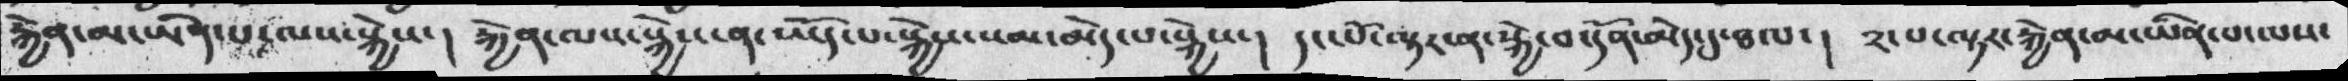རྐྱེན་མ་ཡིན་པ་ལས་སྐྱེས་ ། སྐྱེན་ལས་སྐྱེས་ན་ཡོད་པ་སྐྱེས་སམ་མེད་པ་སྐྱེས་།   དང་པོ་ལྟར་ན་སྐྱེ་བ་དོན་མེད་དུ་ཐལ་།   ༢་པ་ལྟར་རྐྱེན་མ་ཡིན་པ་ལས་
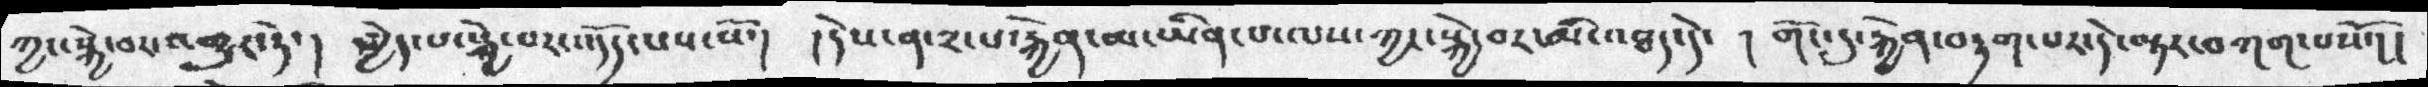ཀྱང་སྐྱེ་བར་འགྱུར་ཏེ་། མྱེད་པ་སྐྱེ་བར་འདོད་པས་སོ་།  ། དེས་ན་༢པ་རྐྱེན་མ་ཡིན་པ་ལས་ཀྱང་སྐྱེ་བར་མི་འཐད་དེ་  ། གོང་དུ་རྐྱེན་བརྟག་པར་དེ་ལྟར་བཀག་པསོ་། །
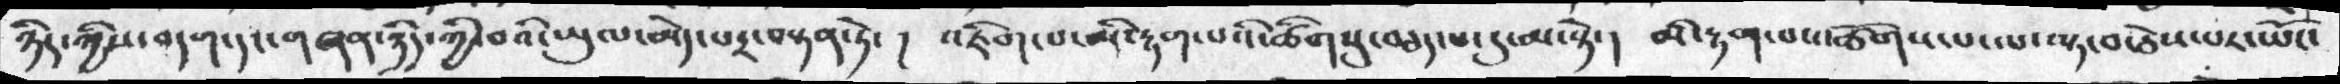ཉིད་ཀྱིས་བདག་དང་གཞན་ཉིད་ཀྱི་བའི་ཡུལ་མེདཔར་བསྟན་ཏེ་ ། འཇིག་པ་མི་རྟག་པའི་ཚིགསུ་བཅད་པ་དུ་མ་སྟེ་། མི་རྟག་པས་ཚོགས་པ་ལ་ལྟ་བ་ཅེས་པར་ཡོང་
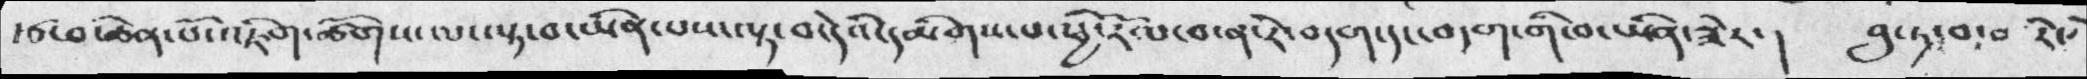རྩ་མ་ཆེན་པོ་འཇིག་ཚོགས་ལ་ལྟ་བ་ཡིན་པས་ལྟ་བ་དེའི་དམིགས་པ་ཕྱི་རོལ་བ་ན་རེ་བདག་དང་བདག་གི་བ་ཡིན་ཟེར་།  བུ་ཏ་བ་ན་རེ་
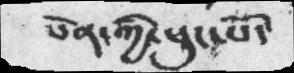པེན་ཀྱི་ཕུང་པོ་
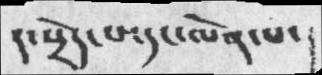ད་སྲེད་པ་དང་ལེན་པ་ །
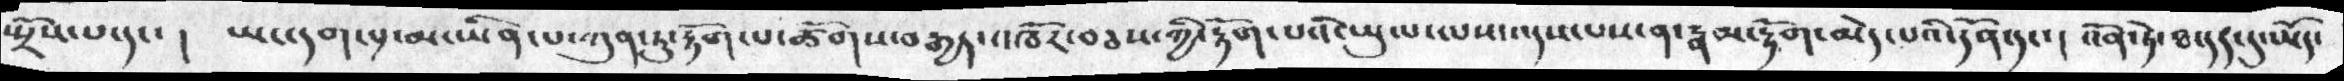སྤྲོས་པ་དང་ ། ཡང་དག་པ་ཡིན་པ་ཀུན་ཏུ་རྟོག་པ་ཚོགས་བརྒྱད་འཁོར་བཅས་ཀྱི་རྟོག་པའི་ཡུལ་ལས་འདས་པས་ན་རྣམ་རྟོག་མེད་པའི་དོན་དང་ ། འོན་ཏེ་ཐ་དད་དུ་ཡོད་
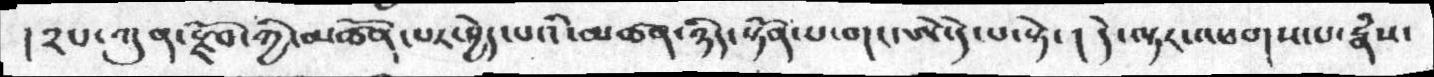།༢པ་ཀུན་སྫོབ་ཀྱི་མཚོན་པར་བྱེད་པའི་མཚན་ཉིད་སྟོན་པ་གང་ཨེ་དེ་པ་སྟེ་ ། དེ་ལྟར་འཕགས་པ་རྣཾས་
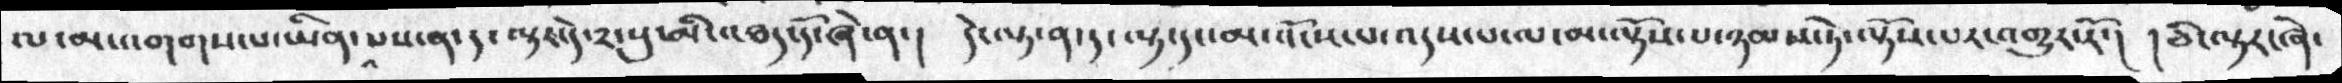ལ་མ་འགགས་པ་ཡིན་པས་ན་ད་ལྟར་དེ་༢་སུ་མི་འཐད་དོ་ཞེ་ན་།  དེ་ལྟ་ན་ད་ལྟ་དང་མ་འོངས་པ་འདས་པ་ལ་མ་ལྟོས་པ་ཉམས་ཏེ་ལྟོས་པར་འགྱུར་རོ་།   །ཅི་ལྟར་ཞེ་
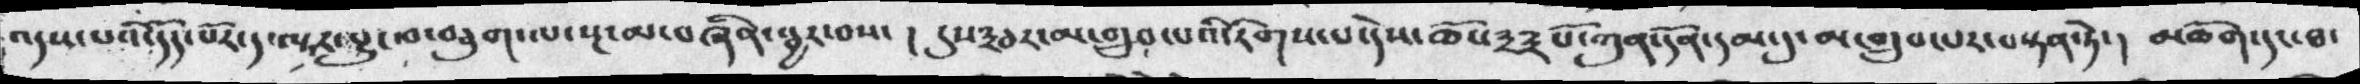འདས་པའོ་དོད་པོཏ་ད་ལྟར་བྱུང་བ་བཅུག་ལ་སྔ་མ་བཞིན་སྦྱར་བས་། དུས༣ཅར་མ་གྲུབ་པའི་རིགས་པ་དེས་ཆོས༣༣པོ་ཀུན་དོན་དམ་དུ་མ་གྲུབ་པར་བསྟན་ཏེ་། མཆོག་དང་ཐ་
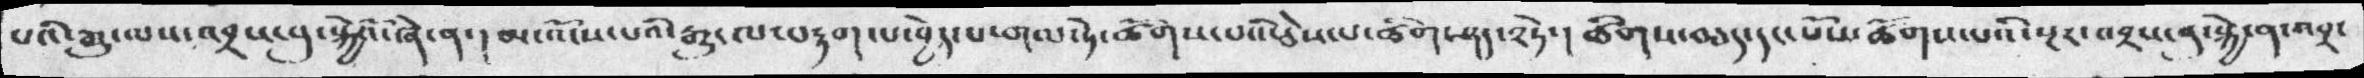པའི་རྒྱུ་ལས་འབྲས་བུ་སྐྱེའོ་ཞེ་ན་། མ་འོངས་པའི་རྒྱུ་ལ་བརྟག་པ་བྱེད་པ་གལ་ཏེ་ཚོགས་པའི་ཅེས་པ་ཚིག་ཤད་༢ཏེ་། ཚིགས་བཅད་དང་པོས་ཚོགས་པའི་སྔར་འབྲས་བུ་སྐྱེ་ན་འབྲ་
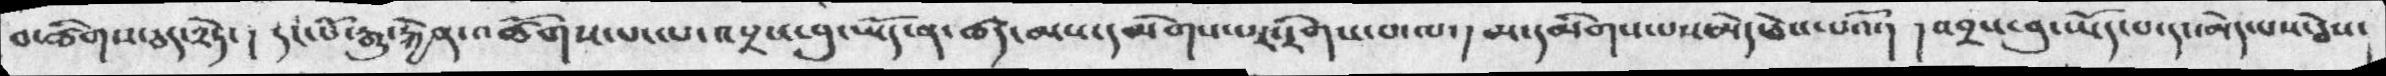བ་ཚིགས་ཅད་༢ཏེ་། དང་པོ་རྒྱུ་རྐྱེན་འཚོགས་པ་ལ་འབྲས་བུ་ཡོད་ན་ཚད་མས་དམིགས་པར་རིགས་པ་ལ་། མ་དམིགས་པས་མེད་ཅེས་པའོ་། །འབྲས་བུ་ཡོད་པ་དང་མེད་པས་ཅེས་
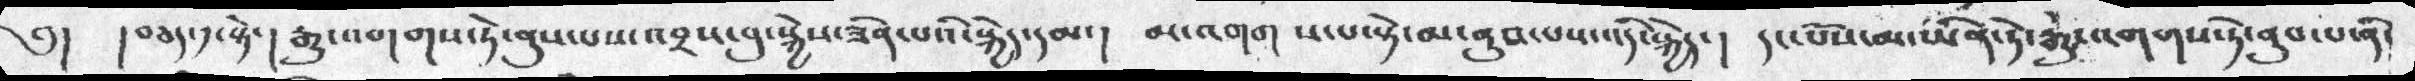༅།  །བཅད་༡་སྟེ་། རྒྱུ་འགགས་ཏེ་ནུས་པས་འབྲས་བུ་སྐྱེས་ཟིན་པའི་སྐྱེད་དམ་།   མ་འགགས་པ་སྟེ་མ་ནུབ་པས་འདི་སྐྱེད་། དང་པོས་མ་ཡིན་ཏེ་རྒྱུ་འགགས་ཏེ་ནུབ་པ་ནི་
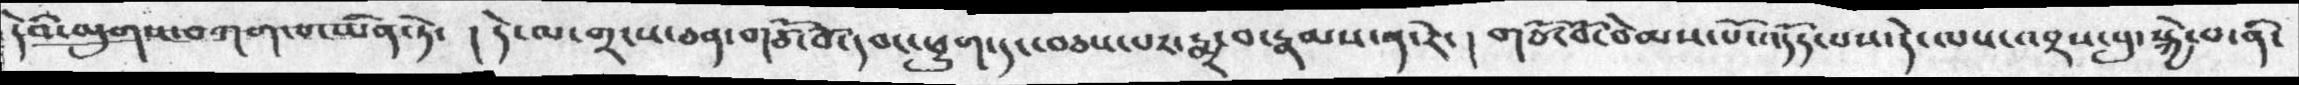དེའི་ལུགས་བཀག་པ་ཡིན་ཏེ་། དེ་ལ་གྲངས་ཅན་གཙོ་བོ་དབང་ཕྱུག་དང་བཅས་པར་སྨྲ་བ་རྣམས་ན་རེ་། གཙོ་བོ་བེམས་པོ་འདོད་པས་དེ་ལས་འབྲས་བུ་སྐྱེ་བ་ནི་
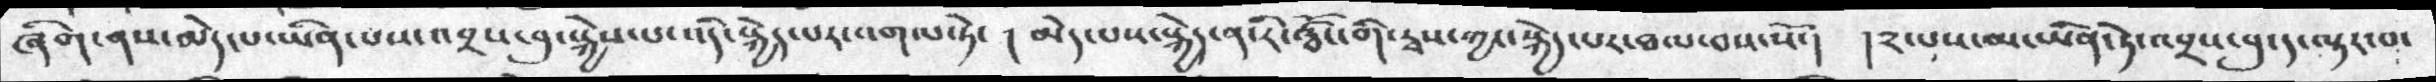ཞིག་ནས་མེད་པ་ཡིན་པས་འབྲས་བུ་སྐྱེད་པ་འདི་སྐྱེད་པར་འགལ་ཏེ་། མེད་པས་སྐྱེད་ན་རི་བོང་གི་རྭས་ཀྱང་སྐྱེད་པར་ཐལ་བས་སོ་། །༢་པས་མ་ཡིན་ཏེ་འབྲས་བུ་ད་ལྟར་བ་
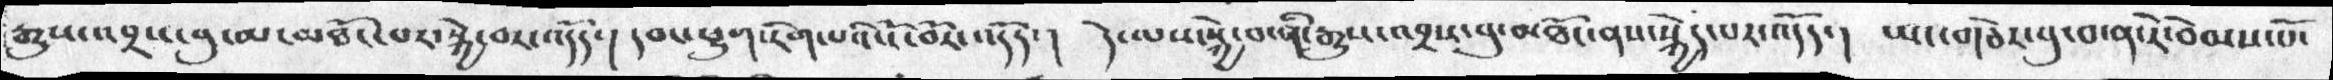རྒྱུས་འབྲས་བུ་མ་མཐོང་བར་སྐྱེ་བར་འདོད་། དབང་ཕྱུག་རིག་པའི་ངོ་བོར་འདོད་། དེ་ལས་སྐྱེ་བ་ནི་རྒྱུས་འབྲས་བུ་མཐོང་ནས་སྐྱེད་པར་འདོད་། ཡང་གཅེར་བུ་བ་ན་རེ་བེམས་པོ་
